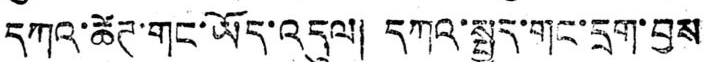དཀའ་ཚེཊ་གང་ཡོད་འདུལ། དཀའ་སྤྱད་གང་དྲག་བྱས
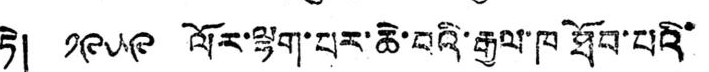ཏེ། ༡༩༥༩ ལོར་ལྷག་པར་ཆེ་བའི་རྒྱལ་ཁ ཐོབ་པའི་
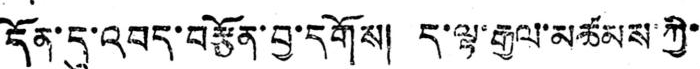དོན་དུ་འབད་བརྩོན་བྱ་དགོས། ད་ལྟ་རྒྱལ་མཚམས་ཀྱི་
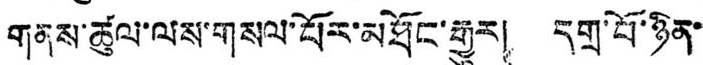གནས་ཚུལ་ལས་གསལ་པོར་མཐོང་རྒྱུར། དགྲ་པོ་ཉིན་
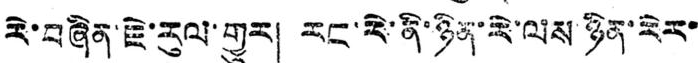རེ་བཞིན་ཇེ་རུལ་གྱུར། རང་རེ་ནི་ཉིན་རེ་ལས་ཉིན་རེར་
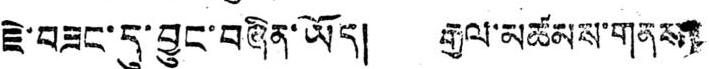ཇེ་བཟང་དུ་བྱུང་བཞིན་ཡོད། རྒྱལ་མཚམས་གནས།
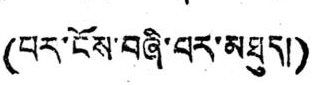(པར་ངོས་བཞི་པར་མཐུད།)
